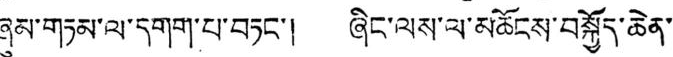ཞུམ་གཏམ་ལ་དགག་པ་བཏང་། ཞིང་ལས་ལ་མཆོངས་བསྐྱོད་ཆེན་
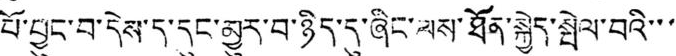པོ་བྱུང་བ་དེས་ད་དུང་མྱུར་བ་ཉིད་དུ་ཞིང་ལས་ཐོན་སྐྱེད་སྤེལ་བའི་་་
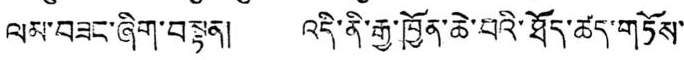ལམ་བཟང་ཞིག་བསྟན། འདི་ནི་རྒྱ་ཁྱོན་ཆེ་བའི་ཐོད་ཚད་གཏོས་
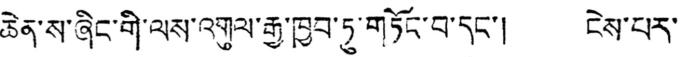ཆེན་ས་ཞིང་གི་ལས་འགུལ་རྒྱ་ཁྱབ་ཏུ་གཏོང་བ་དང་། ངེས་པར་
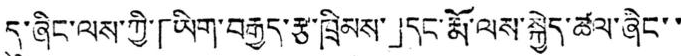དུ་ཞིང་ལས་ཀྱི་「ཡིག་བརྒྱད་རྩ་ཁྲིམས་」དང་རྨོ་ལས་སྐྱེད་ཚལ་ཞིང་་
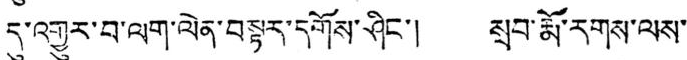དུ་འགྱུར་བ་ལག་ལེན་བསྟར་དགོས་ཤིང་། སྲབ་རྨོ་རགས་ལས་
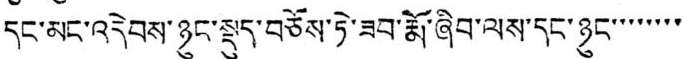དང་མང་འདེབས་ཉུང་སྡུད་བཅོས་ཏེ་ཟབ་རྨོ་ཞིབ་ལས་དང་ཉུང་་་་་་་་
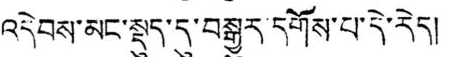འདེབས་མང་སྡུད་དུ་བསྒྱུར་དགོས་པ་དེ་རེད།
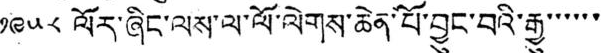༡༩༥༨ ལོར་ཞིང་ལས་ལ་ལོ་ལེགས་ཆེན་པོ་བྱུང་བའི་རྒྱུ་་་་་་
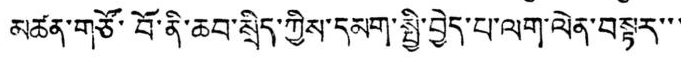མཚན་གཙོ་བོ་ནི་ཆབ་སྲིད་ཀྱིས་དམག་སྤྱི་བྱེད་པ་ལག་ལེན་བསྟར་་་
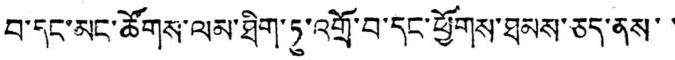བ་དང་མང་ཚོགས་ལམ་ཐིག་ཏུ་འགྲོ་བ་དང་ཕྱོགས་ཐམས་ཅད་ནས་་
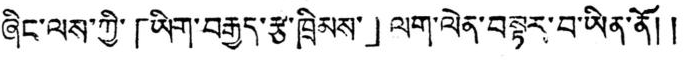ཞིང་ལས་ཀྱི་「ཡིག་བརྒྱད་རྩ་ཁྲིམས་」ལག་ལེན་བསྟར་བ་ཡིན་ནོ། །
